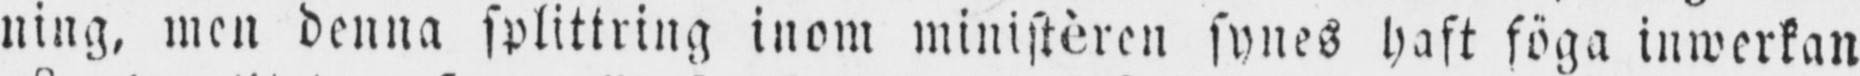ning, men denna splittring inom ministèren synes haft föga inwerkan
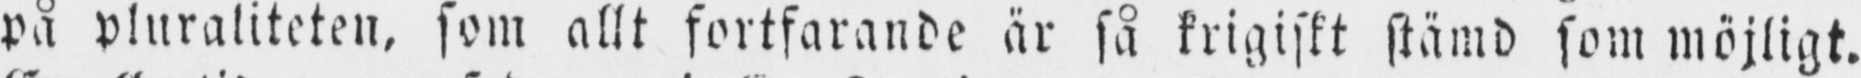på pluraliteten, som allt fortfarande är så krigiskt stämd som möjligt.
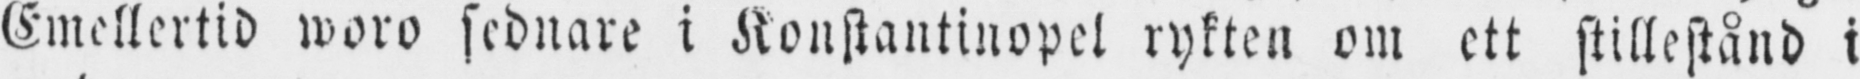Emellertid woro sednare i Konstantinopel rykten om ett stillestånd i
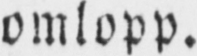omlopp.
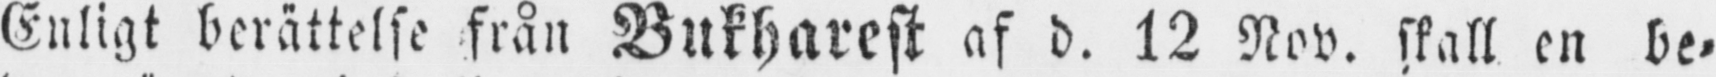Enligt berättelse från Bukharest af d. 12 Nov. skall en be-
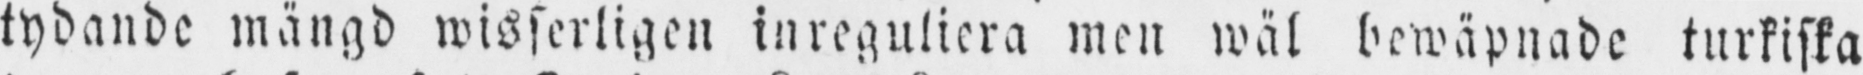tydande mängd wisserligen inreguliera men wäl bewäpnade turkiska
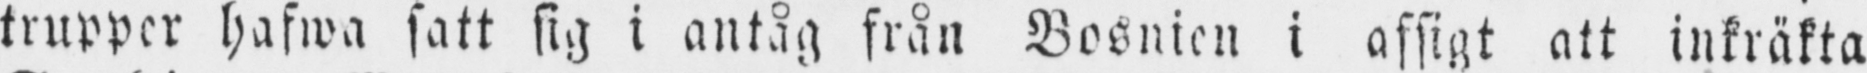trupper hafwa satt sig i antåg från Bosnien i afsigt att inkräkta
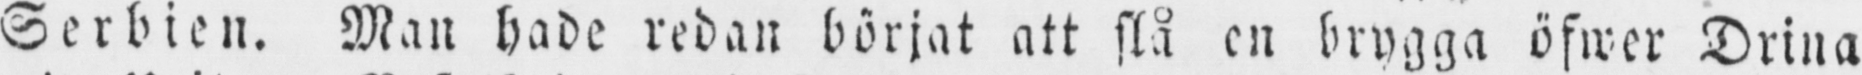Serbien. Man hade redan börjat att slå en brygga öfwer Drina
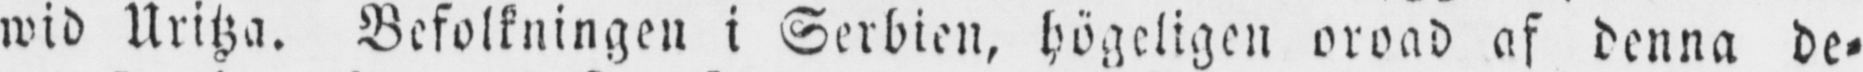wid Uritza. Befolkningen i Serbien, högeligen oroad af denna de-
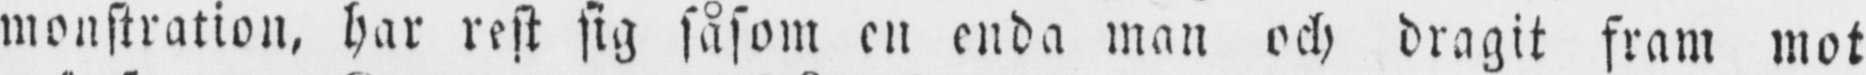monstration, har rest sig såsom en enda man och dragit fram mot
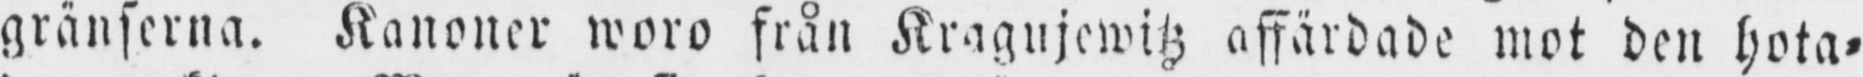gränserna. Kanoner woro från Kragujewitz affärdade mot den hota-
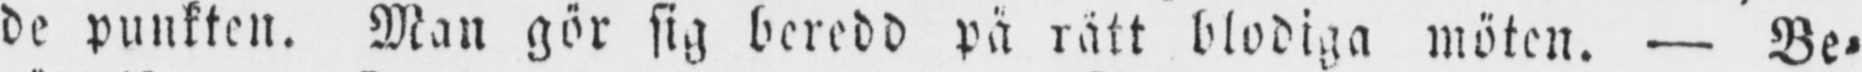de punkten. Man gör sig beredd på rätt blodiga möten. — Be-
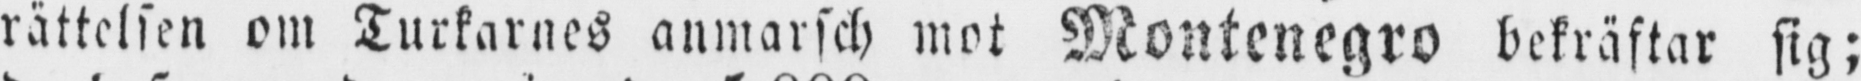rättelsen om Turkarnes anmarsch mot Montenegro bekräftar sig;
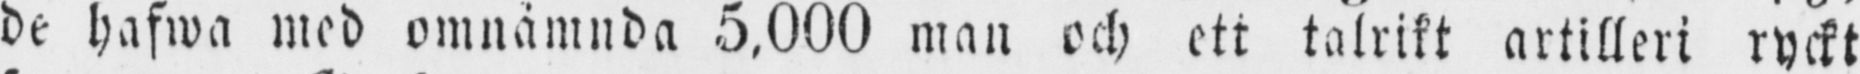de hafwa med omnämnda 5,000 man och ett talrikt artilleri ryckt
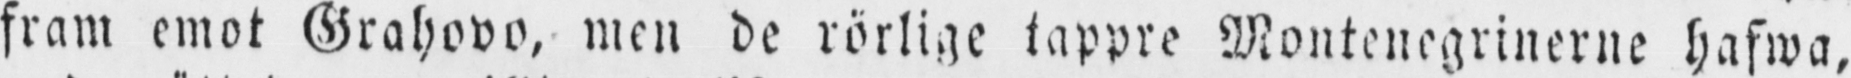fram emot Grahovo, men de rörlige tappre Montenegrinerne hafwa,
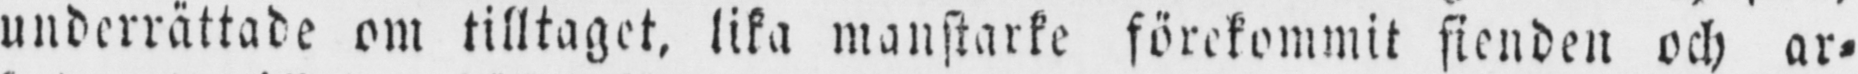underrättade om tilltaget, lika manstarke förekommit fienden och ar-
